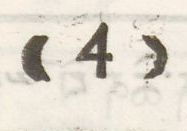(( 4 )) ༈ བོད་མིའི་རང་དབང་གསར་ཤོག་ ། REGD NO C. 357
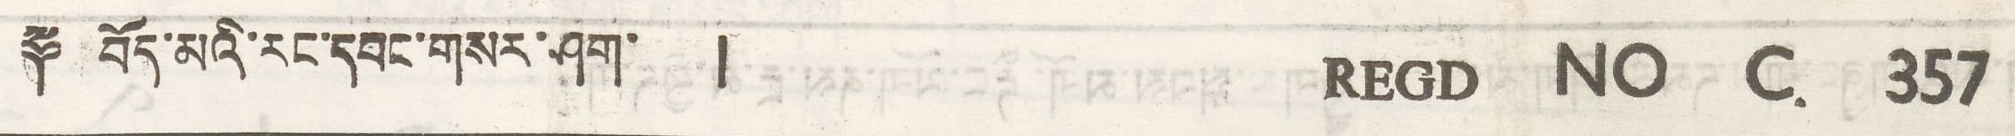(( 4 )) ༈ བོད་མིའི་རང་དབང་གསར་ཤོག་ ། REGD NO C. 357
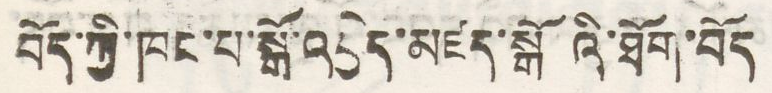བོད་ཀྱི་ཁང་པ་སྒོ་འབྱེད་མཛད་སྒོའི་ཐོག་བོད
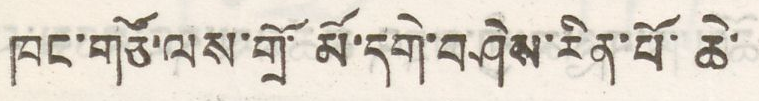ཁང་གཙོ་ལས་གྲོ་མོ་དགེ་བཤེས་རིན་པོ་ཆེ་
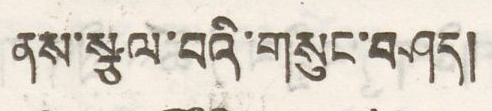ནས་སྩལ་བའི་གསུང་བཤད།
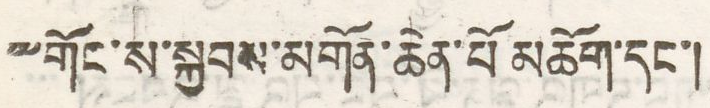༸གོང་ས་སྐྱབས་མགོན་ཆེན་པོ མཆོག་དང་།
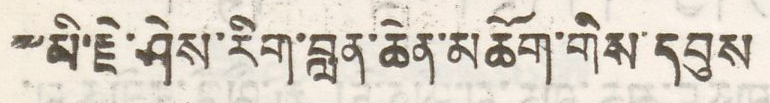༸མི་རྗེ་ཤེས་རིག་བླན་ཆེན་མཆོན་གིས་དབུས
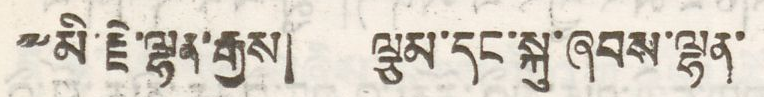༸མི་རྗེ་ལྷན་རྒྱས། ལྕམ་དང་སྐུ་ཞབས་ལྷན་
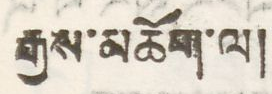རྒྱས་མཆོག་ལ།
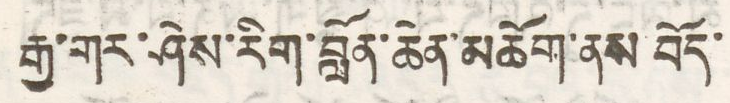རྒྱ་གར་ཤེས་རིག་བློན་ཆེན་མཆོག་ནས བོད་
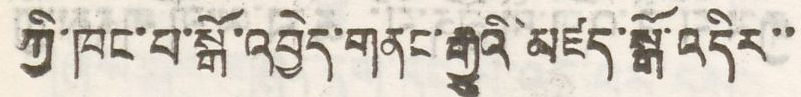ཀྱི་ཁང་པ་སྒོ་འབྱེད་གནང་རྒྱུའི་མཛད་སྒོ་འདིར་་
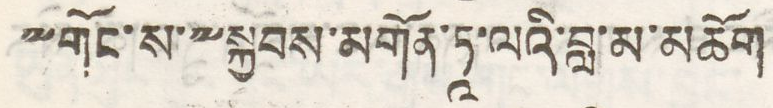༸གོང་ས་༸སྐྱབས་མགོན་ཏྰ་ལའི་བླ་མ་མཆོག
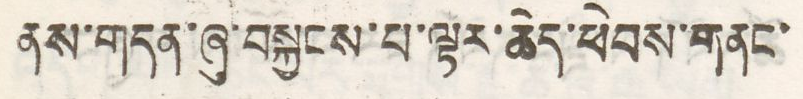ནས་གདན་ཞུ་བསྐྱངས་པ་ལྟར་ཆེད་ཕེབས་གནང་
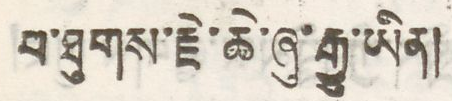ན་ཐུགས་རྗེ་ཆེ་ཞུ་རྒྱུ་ཡིན།
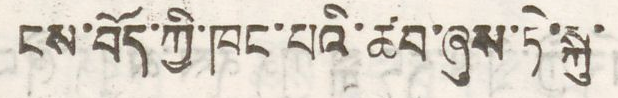ངས་བོད་ཀྱི་ཁང་པའི་ཚབ་ཞུས་ཏེ་སྐུ་
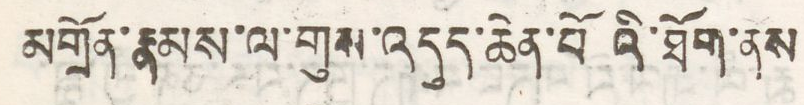མགྲོན་རྣམས་ལ་གུས་འདུད་ཆེན་པོའི་ཐོག་ནས
